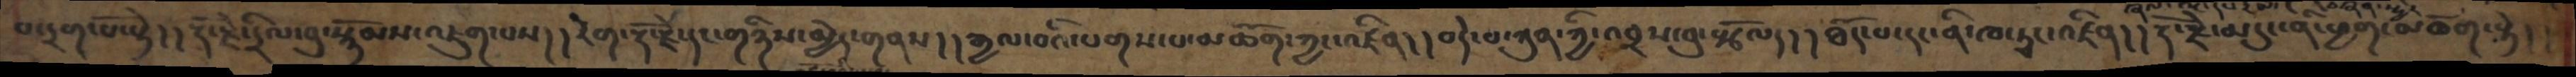བ་དྲག་པོ་སྟེ།།རྡོ་རྗེ་དྲིལ་བུ་སྙོམས་འཇུག་པས།།རེག་རྡོ་རྗེ་དང་གཉིས་མྱེད་གནས།།རྒྱལ་བའི་པགས་པ་མཆོག་ཀྱང་འཛིན།།བདེ་བ་ཀུན་གྱི་འབྲས་བུ་སྩོལ།།ཐོད་པ་དང་ནི་ཁ་ཏྭང་འཛིན།།རྡོ་རྗེ་མདུང་ནི་ཕྱག་མཆོག་སྟེ།།
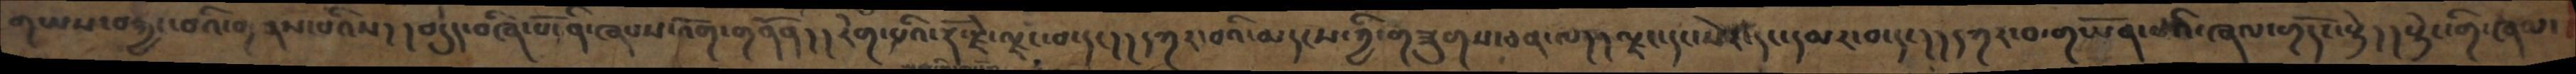གཡས་བརྐྱང་བའི་གནས་པའིས།།བདུད་བཞི་པོ་ནི་ཞབས་འོག་གནོན།།རེག་པའི་རྡོ་རྗེ་ལྗང་བ་དང།།དཀར་བའི་མདངས་ཀྱི་གཟུགས་ཅན་ལ།།ལྗང་དང་སེར་དང་དམར་བ་དང།།དཀར་བ་གཡོན་པའི་ཞལ་གདོང་སྟེ།།སྟེང་གི་ཞལ་
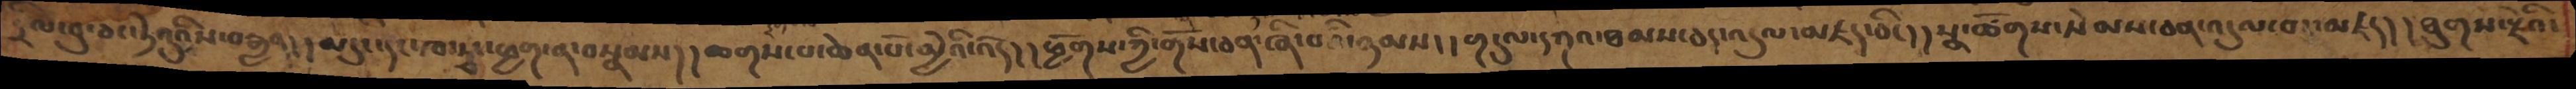དྲིལ་བུ་ཅང་ཏེའུའིས་བརྒྱན།།མདུང་དང་ཁ་ཏྭང་ཕྱག་ན་བསྣམས།།ཆགས་པ་ཆེན་པོ་མྱེའི་འོད།།ཕྱོགས་ཀྱི་གོས་ཅན་ཞི་བའི་ཉམས།།གདུལ་དཀའ་ཐམས་ཅད་འདུལ་མཛད་ཅིང།།སྣ་ཚོགས་སེམས་ཅན་འདུལ་བར་མཛད།།ཐུགས་རྗེའི་
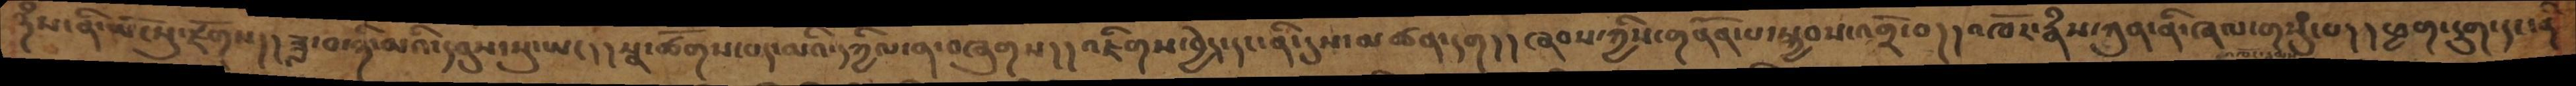ཉཾས་ནི་ཡོངསུ་རྫོགས།།ཟླ་བ་ཉི་མའི་དབུས་སུ་ཡང།།སྣ་ཚོགས་པད་མའི་དཀྱིལ་ན་བཞུགས།།འཇིགས་བྱེད་དང་ནི་དུས་མཚན་དག།།ཞབས་ཀྱིས་གནོན་པ་སྐྱབས་འགྲོ་བ།།འཁོར་རྣཾས་ཀུན་ནི་ཞལ་གསུཾ་པ།།ཕྱག་དྲུག་དང་ནི་
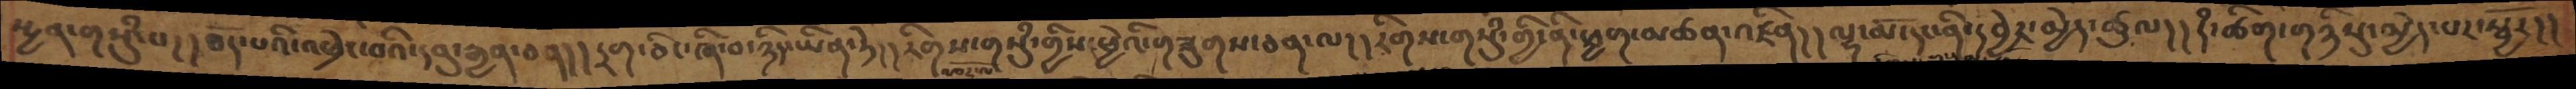སྤྱན་གསུཾ་པ།།ཐོད་པའི་འཕྲེང་བའི་དབུ་རྒྱན་བཤད།།དྲག་ཅིང་ཞི་བ་ཉིད་ཡིན་ཏེ།།རིགས་གསུཾ་གྱིས་ཕྱེའི་གཟུགས་ཅན་ལ།།རིགས་གསུཾ་གྱི་ནི་ཕྱག་མཚན་འཛིན།།ལྷ་མོ་དང་ནི་དབྱེར་མྱེད་ཚུལ།།དཾ་ཚིག་གཉིསུ་མྱེད་པར་སྦྱོར།།
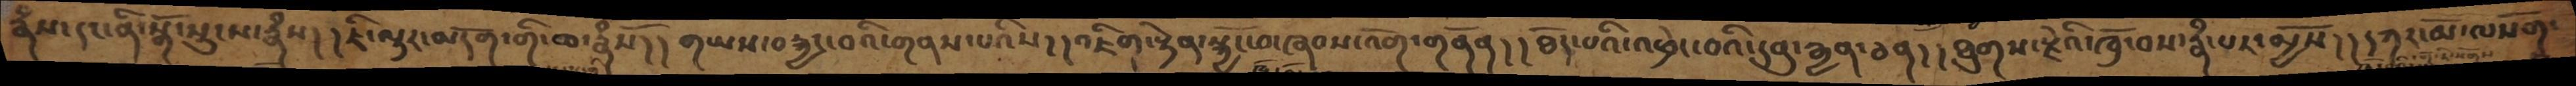རྣཾས་དང་ནི་སྒོ་སྲུངས་རྣཾས།།ཇི་ལྟར་མདོག་གི་ཆ་རྣཾསོ།།གཡས་བརྐྱང་བའི་གནས་པའིས།།འཇིག་རྟེན་སྐྱོང་བ་ཞབས་འོག་གནོན།།ཐོད་པའི་འཕྲེང་བའི་དབུ་རྒྱན་ཅན།།ཐུགས་རྗེའི་ཁྲོ་བས་རྣཾ་པར་མྱོས།།དཀར་མོ་ལསོག་
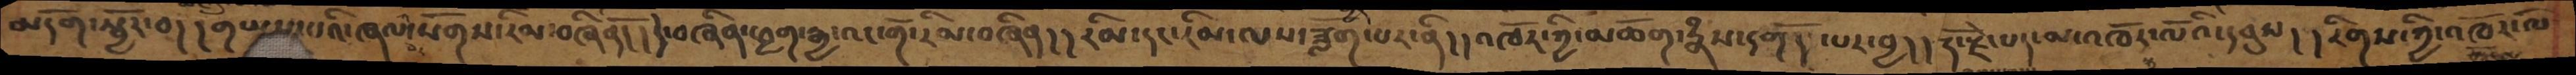མདོག་སྦྱོར་བ།།གཡས་པའི་ཞལ་སོགས་རིམ་བཞིནོ།།དེ་བཞིན་ཕྱག་རྒྱ་འང་གོ་རིམ་བཞིན།།རིམ་དང་རིམ་ལས་ཟློག་པར་ནི།།འཁོར་ཀྱི་མཆོག་རྣཾས་དགོད་པར་བྱ།།རྡོ་རྗེ་པད་མ་འཁོར་ལོའི་དབུས།།རིགས་ཀྱི་འཁོར་ལོ་
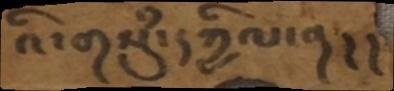འི་གསུཾ་དཀྱིལ་ན།།
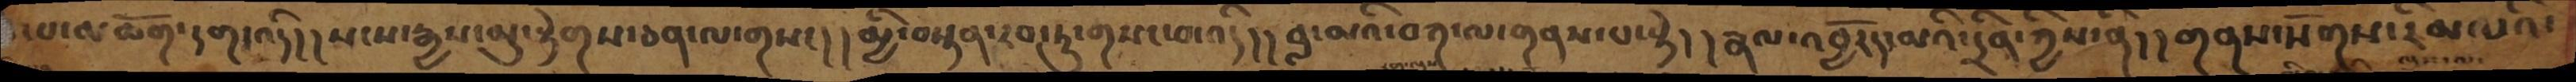་པ་མཆོག་དག་འདི།།སངས་རྒྱས་མུ་སྟེགས་ཅན་ལ་གསང།།མྱི་བསྟན་རབ་ཏུ་གསང་བ་འདི།།བླ་མའི་བཀ་ལ་གནས་པ་སྟེ།།རྣལ་འབྱོརད་མའི་དྲིན་ཀྱིས་ནི།།གནས་སོགས་རིམ་པའི་
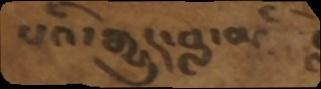པའི་རྒྱུད་བླ་མའི་བླ
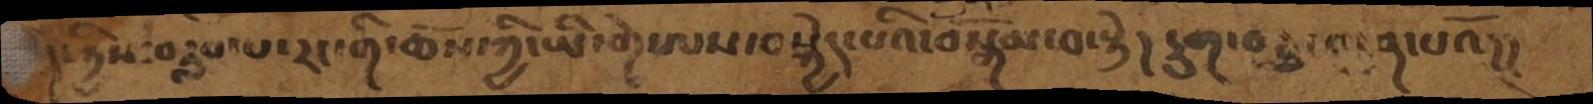ད་ཀྱིས་བརླབ་པ་རང་གི་ཆོས་ཀྱི་ཡི་གེ་ལས་བསྐྱེད་པའི་བསྒོམ་བ་སྟེ། དྲུག་བཅུ་བདུན་པའོ།།
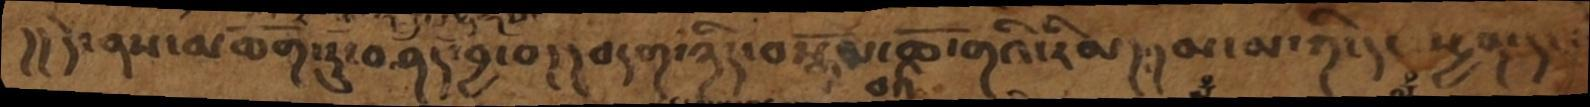།།དེ་ནས་མཆོག་ཏུ་བཤད་བྱ་བ།།བདག་ཉིད་བསྒོམ་བའི་ཆོ་གའི་རིམ།།མ་མ་ཀི་དང་སྤྱན་དང་
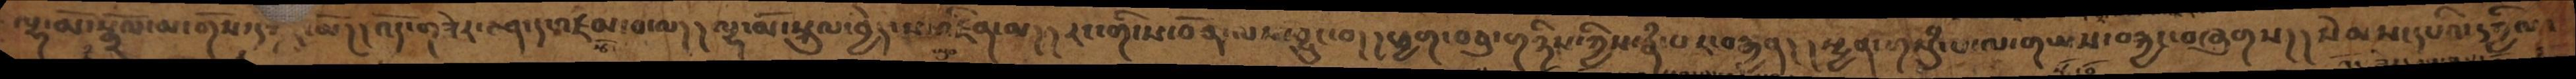ལྷ་མོ་སྒྲོལ་མ་གོས་དཀར་མོ།།འོད་གཟེར་ཅན་དང་འཛམ་བ་ལ།།ལྷ་མོ་སྐུལ་བྱེད་ས་འཛིན་མ།།རང་གི་ས་བོན་ལས་བྱུང་བ།།ཕྱག་བཅུ་གཉིས་ཀྱིས་རྣཾ་པར་བརྒྱན།།སྤྱན་གསུཾ་པ་ལ་གཡས་བརྐྱང་བཞུགས།།སེམས་དཔའི་དཀྱིལ་
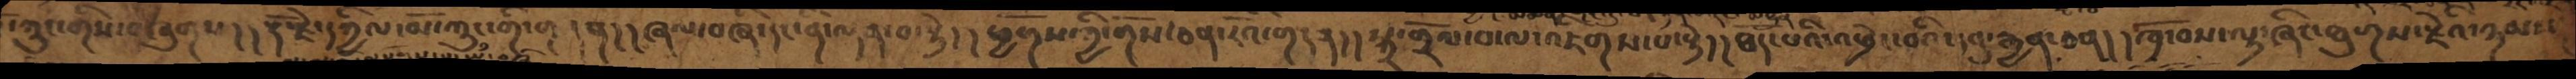དཀྲུང་གིས་བཞུགས།།རྡོ་རྗེ་དཀྱིལ་མོ་ཀྲུང་གི་གདན།།ཞལ་བཞི་དང་ནི་ལྡན་པ་སྟེ།།ཕྱོགས་ཀྱི་གོས་ཅན་རོའི་གདན།།སྐྲ་གྲོལ་པ་ལ་འཇིགས་པ་སྟེ།།།ཐོད་པའི་འཕྲེང་བའི་དབུ་རྒྱན་ཅན།།ཁྲོ་བས་ལྟ་ཞིང་ཐུགས་རྗེའི་ཉམས
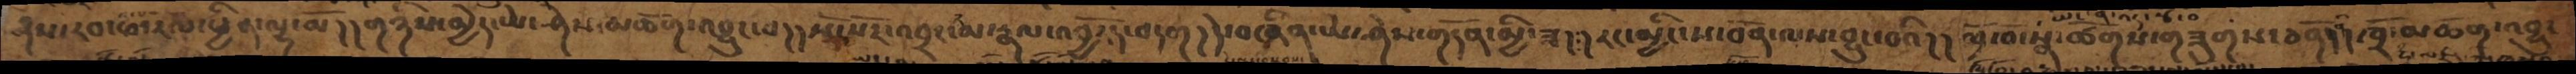ཤེས་རབ་ཕ་རོལ་ཕྱིན་ལྷ་མོ།།གཉིས་མེད་ཡེ་ཤེས་མཆོག་འབྱུང་བ།།སོ་སོར་འབྲང་མ་རྣལ་འབྱོརད་བདག།དེ་བཞིན་ཡེ་ཤེས་གདོན་མྱི་ཟ།།རང་མྱིང་ས་བོན་ལས་བྱུང་བའི།།བྲོ་བ་སྣ་ཚོགས་གཟུགས་ཅནོ།།ཁྲོ་མཆོག་འབྱུང
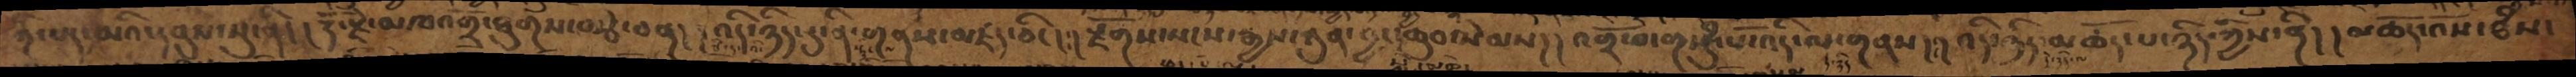ཉི་པད་མའི་དབུས་སུ་ནི།།རྡོ་རྗེ་མཁའགྲོ་ཐུགས་བརྩེ་ཅན།།འདི་ཉིད་དུ་ནི་གནས་མཛད་ཅིང།།རྫོགས་སངས་རྒྱས་ཀུན་བྱང་ཆུབ་སེམས།།འགྲོ་བ་གསུཾ་པོ་འདི་ལ་གནས།།འདི་ཉིད་མཆོད་པ་ཉིད་ཀྱིས་ནི།།མཆོད་འོས་ཐཾས་
